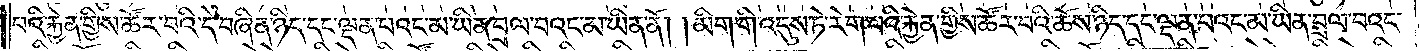པའི་རྐྱེན་གྱིས་ཚོར་བའི་དེ་བཞིན་ཉིད་དང་ལྡན་པའང་མ་ཡིན་བྲལ་བའང་མ་ཡིན་ནོ། །མིག་གི་འདུས་ཏེ་རེག་པའི་རྐྱེན་གྱིས་ཚོར་བའི་ཆོས་ཉིད་དང་ལྡན་པའང་མ་ཡིན་བྲལ་བའང་
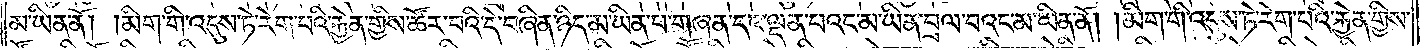མ་ཡིན་ནོ། །མིག་གི་འདུས་ཏེ་རེག་པའི་རྐྱེན་གྱིས་ཚོར་བའི་དེ་བཞིན་ཉིད་མ་ཡིན་པ་གཞན་དང་ལྡན་པའང་མ་ཡིན་བྲལ་བའང་མ་ཡིན་ནོ། །མིག་གི་འདུས་ཏེ་རེག་པའི་རྐྱེན་གྱིས་
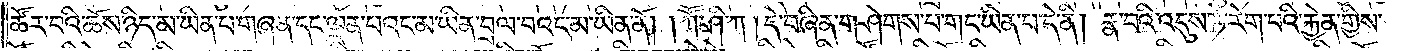ཚོར་བའི་ཆོས་ཉིད་མ་ཡིན་པ་གཞན་དང་ལྡན་པའང་མ་ཡིན་བྲལ་བའང་མ་ཡིན་ནོ། །ཀཽ་ཤི་ཀ །དེ་བཞིན་གཤེགས་པ་གང་ཡིན་པ་དེ་ནི། །རྣ་བའི་འདུས་ཏེ་རེག་པའི་རྐྱེན་གྱིས་
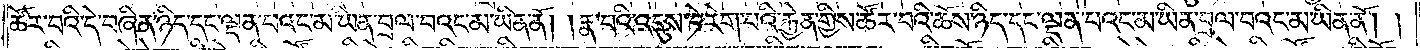ཚོར་བའི་དེ་བཞིན་ཉིད་དང་ལྡན་པའང་མ་ཡིན་བྲལ་བའང་མ་ཡིན་ནོ། །རྣ་བའི་འདུས་ཏེ་རེག་པའི་རྐྱེན་གྱིས་ཚོར་བའི་ཆོས་ཉིད་དང་ལྡན་པའང་མ་ཡིན་བྲལ་བའང་མ་ཡིན་ནོ། །
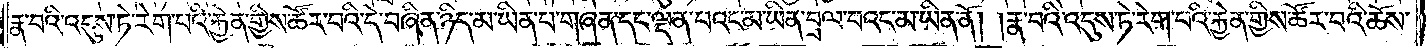རྣ་བའི་འདུས་ཏེ་རེག་པའི་རྐྱེན་གྱིས་ཚོར་བའི་དེ་བཞིན་ཉིད་མ་ཡིན་པ་གཞན་དང་ལྡན་པའང་མ་ཡིན་བྲལ་བའང་མ་ཡིན་ནོ། །རྣ་བའི་འདུས་ཏེ་རེག་པའི་རྐྱེན་གྱིས་ཚོར་བའི་ཆོས་
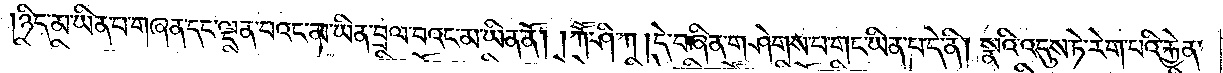ཉིད་མ་ཡིན་པ་གཞན་དང་ལྡན་པའང་མ་ཡིན་བྲལ་བའང་མ་ཡིན་ནོ། །ཀཽ་ཤི་ཀ །དེ་བཞིན་གཤེགས་པ་གང་ཡིན་པ་དེ་ནི། སྣའི་འདུས་ཏེ་རེག་པའི་རྐྱེན་
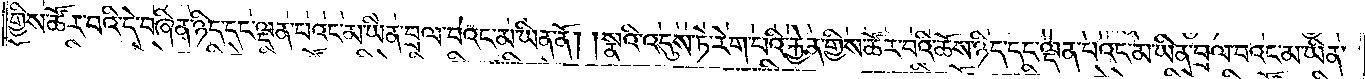གྱིས་ཚོར་བའི་དེ་བཞིན་ཉིད་དང་ལྡན་པའང་མ་ཡིན་བྲལ་བའང་མ་ཡིན་ནོ། །སྣའི་འདུས་ཏེ་རེག་པའི་རྐྱེན་གྱིས་ཚོར་བའི་ཆོས་ཉིད་དང་ལྡན་པའང་མ་ཡིན་བྲལ་བའང་མ་ཡིན་
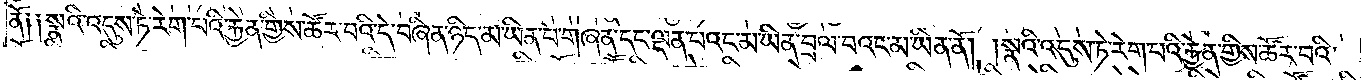ནོ། །སྣའི་འདུས་ཏེ་རེག་པའི་རྐྱེན་གྱིས་ཚོར་བའི་དེ་བཞིན་ཉིད་མ་ཡིན་པ་གཞན་དང་ལྡན་པའང་མ་ཡིན་བྲལ་བའང་མ་ཡིན་ནོ། །སྣའི་འདུས་ཏེ་རེག་པའི་རྐྱེན་གྱིས་ཚོར་བའི་
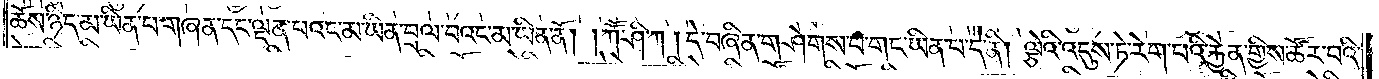ཆོས་ཉིད་མ་ཡིན་པ་གཞན་དང་ལྡན་པའང་མ་ཡིན་བྲལ་བའང་མ་ཡིན་ནོ། །ཀཽ་ཤི་ཀ །དེ་བཞིན་གཤེགས་པ་གང་ཡིན་པ་དེ་ནི། ལྕེའི་འདུས་ཏེ་རེག་པའི་རྐྱེན་གྱིས་ཚོར་བའི་
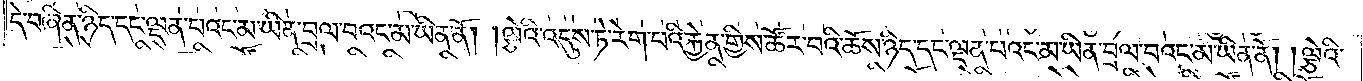དེ་བཞིན་ཉིད་དང་ལྡན་པའང་མ་ཡིན་བྲལ་བའང་མ་ཡིན་ནོ། །ལྕེའི་འདུས་ཏེ་རེག་པའི་རྐྱེན་གྱིས་ཚོར་བའི་ཆོས་ཉིད་དང་ལྡན་པའང་མ་ཡིན་བྲལ་བའང་མ་ཡིན་ནོ། །ལྕེའི་
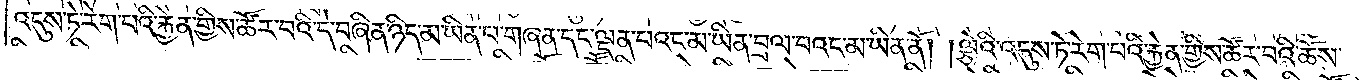འདུས་ཏེ་རེག་པའི་རྐྱེན་གྱིས་ཚོར་བའི་དེ་བཞིན་ཉིད་མ་ཡིན་པ་གཞན་དང་ལྡན་པའང་མ་ཡིན་བྲལ་བའང་མ་ཡིན་ནོ། །ལྕེའི་འདུས་ཏེ་རེག་པའི་རྐྱེན་གྱིས་ཚོར་བའི་ཆོས་
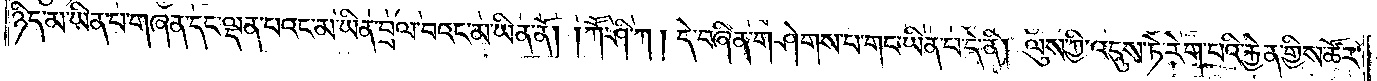ཉིད་མ་ཡིན་པ་གཞན་དང་ལྡན་པའང་མ་ཡིན་བྲལ་བའང་མ་ཡིན་ནོ། །ཀཽ་ཤི་ཀ །དེ་བཞིན་གཤེགས་པ་གང་ཡིན་པ་དེ་ནི། ལུས་ཀྱི་འདུས་ཏེ་རེག་པའི་རྐྱེན་གྱིས་ཚོར་
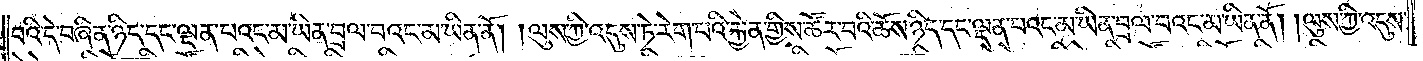བའི་དེ་བཞིན་ཉིད་དང་ལྡན་པའང་མ་ཡིན་བྲལ་བའང་མ་ཡིན་ནོ། །ལུས་ཀྱི་འདུས་ཏེ་རེག་པའི་རྐྱེན་གྱིས་ཚོར་བའི་ཆོས་ཉིད་དང་ལྡན་པའང་མ་ཡིན་བྲལ་བའང་མ་ཡིན་ནོ། །ལུས་ཀྱི་འདུས་
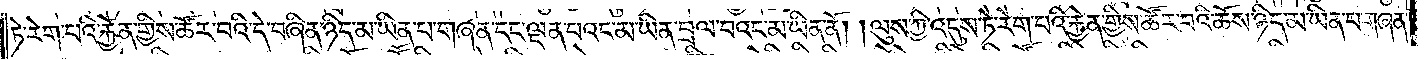ཏེ་རེག་པའི་རྐྱེན་གྱིས་ཚོར་བའི་དེ་བཞིན་ཉིད་མ་ཡིན་པ་གཞན་དང་ལྡན་པའང་མ་ཡིན་བྲལ་བའང་མ་ཡིན་ནོ། །ལུས་ཀྱི་འདུས་ཏེ་རེག་པའི་རྐྱེན་གྱིས་ཚོར་བའི་ཆོས་ཉིད་མ་ཡིན་པ་གཞན་
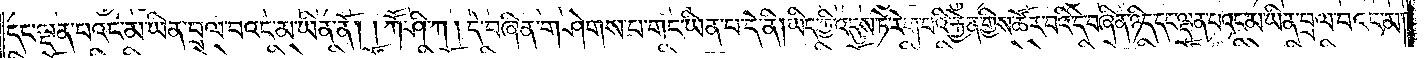དང་ལྡན་པའང་མ་ཡིན་བྲལ་བའང་མ་ཡིན་ནོ། །ཀཽ་ཤི་ཀ །དེ་བཞིན་གཤེགས་པ་གང་ཡིན་པ་དེ་ནི། ཡིད་ཀྱི་འདུས་ཏེ་རེག་པའི་རྐྱེན་གྱིས་ཚོར་བའི་དེ་བཞིན་ཉིད་དང་ལྡན་པའང་མ་ཡིན་བྲལ་བའང་མ་
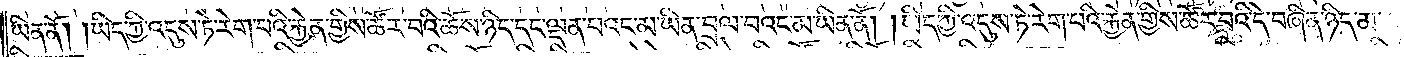ཡིན་ནོ། །ཡིད་ཀྱི་འདུས་ཏེ་རེག་པའི་རྐྱེན་གྱིས་ཚོར་བའི་ཆོས་ཉིད་དང་ལྡན་པའང་མ་ཡིན་བྲལ་བའང་མ་ཡིན་ནོ། །ཡིད་ཀྱི་འདུས་ཏེ་རེག་པའི་རྐྱེན་གྱིས་ཚོར་བའི་དེ་བཞིན་ཉིད་མ་
